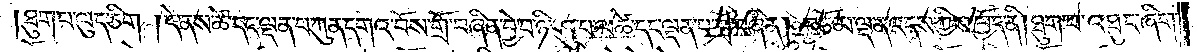ཐུག་པ་ལུད་ཅིག །དེ་ནས་ཚེ་དང་ལྡན་པ་ཀུན་དགའ་བོས་གྲོ་བཞིན་བྱེ་བ་ཉི་ཤུ་པ་ལ་ཚེ་དང་ལྡན་པ་གྲོ་བཞིན། བཅོམ་ལྡན་འདས་ཀྱིས་ཁྱོད་ནི། ཐུག་པ་ཐུང་ཞིག་
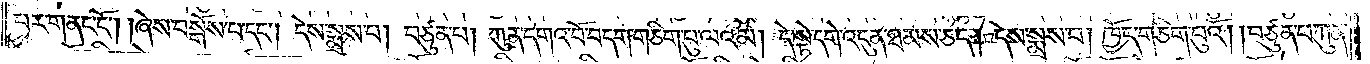བར་གནང་ངོ༌། །ཞེས་བསྒོས་པ་དང༌། དེས་སྨྲས་པ། བཙུན་པ། ཀུན་དགའ་བོ་བདག་གཅིག་པུ་ལའམ། དེ་སྟེ་དགེ་འདུན་ཐམས་ཅད། དེས་སྨྲས་པ། ཁྱོད་གཅིག་པུའི། །བཙུན་པ་ཀུན་
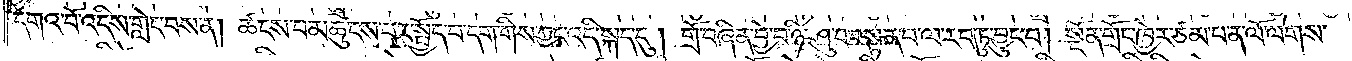དགའ་བོ་འདིས་གླེང་བས་ན། ཚངས་པ་མཚུངས་པར་སྤྱོད་པ་དག་གིས་ཀྱང་འདི་སྐད་དུ། གྲོ་བཞིན་བྱེ་བ་ཉི་ཤུ་པ་བསྟན་པ་ལ་རབ་ཏུ་བྱུང་བ། སྔོན་གྲོང་ཁྱེར་ཙམ་པ་ན་ལོ་ལེགས་
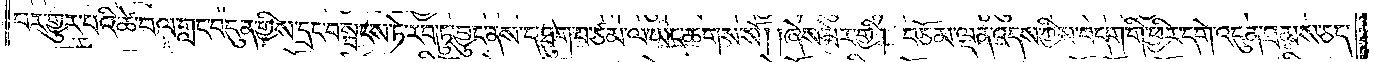པར་གྱུར་པའི་ཚེ་བལ་གླང་བདུན་གྱིས་དྲང་བ་སྤངས་ཏེ་རབ་ཏུ་བྱུང་ནས་ད་ཐུག་པ་ཙམ་ལ་ཡང་ཆགས་སོ། །ཞེས་ཟེར་གྱི། བཅོམ་ལྡན་འདས་ཀྱིས་བདག་གི་ཕྱིར་དགེ་འདུན་ཐམས་ཅད་
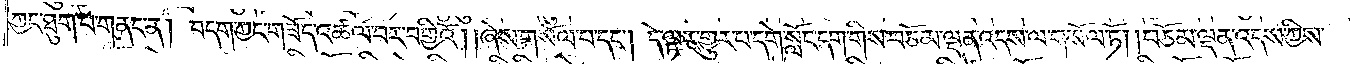ཀྱང་ཐུག་པ་གནང་ན། བདག་ཀྱང་གཟོད་འཚལ་བར་བགྱིའོ། །ཞེས་གསོལ་པ་དང༌། དེ་ལྟར་གྱུར་པ་དགེ་སློང་དག་གིས་བཅོམ་ལྡན་འདས་ལ་གསོལ་ཏོ། །བཅོམ་ལྡན་འདས་ཀྱིས་
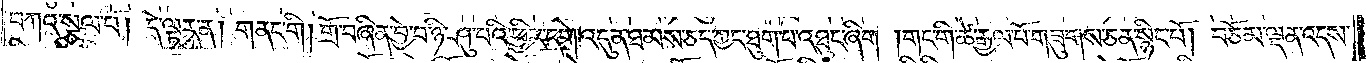བཀའ་སྩལ་པ། དེ་ལྟར་ན། གནང་གི །གྲོ་བཞིན་བྱེ་བ་ཉི་ཤུ་བའི་ཕྱིར་དགེ་འདུན་ཐམས་ཅད་ཀྱང་ཐུག་པ་འཐུང་ཞིག །གང་གི་ཚེ་རྒྱལ་པོ་གཟུགས་ཅན་སྙིང་པོ། བཅོམ་ལྡན་འདས་
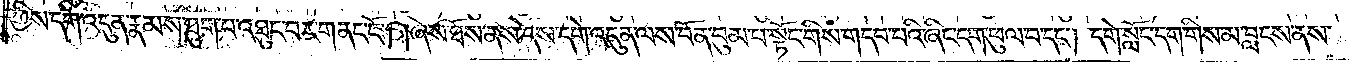ཀྱིས་དགེ་འདུན་རྣམས་ཐུག་པ་འཐུང་བར་གནང་ངོ༌། །ཞེས་ཐོས་ནས་དེས་དགེ་འདུན་ལས་བོན་བུམ་པ་སྟོང་གིས་གདབ་པའི་ཞིང་དག་ཕུལ་བ་དང༌། དགེ་སློང་དག་གིས་མ་བླངས་ནས་
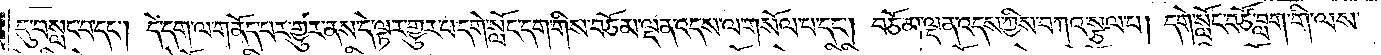དུ་བསླང་བ་དང༌། དེ་དག་ལ་གནོད་པར་གྱུར་ནས་དེ་ལྟར་གྱུར་པ་དགེ་སློང་དག་གིས་བཅོམ་ལྡན་འདས་ལ་གསོལ་པ་དང༌། བཅོམ་ལྡན་འདས་ཀྱིས་བཀའ་སྩལ་པ། དགེ་སློང་བཙོ་བླག་གི་ལས་
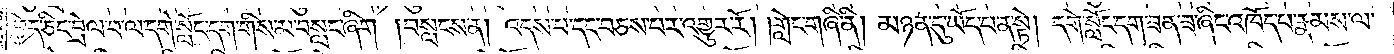བྱེད་ཅིང་བྲེལ་བ་ལ་དགེ་སློང་དག་གིས་མ་བསླང་ཞིག །བསླངས་ན། འདས་པ་དང་བཅས་པར་འགྱུར་རོ། །གླེང་གཞི་ནི། མཉན་དུ་ཡོད་པ་ན་སྟེ། དགེ་སློང་དག་ཟན་ཟ་ཞིང་འཁོད་པ་རྣམས་ལ་
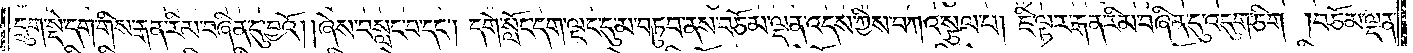དྲུག་སྡེ་དག་གིས་རྒན་རིམ་བཞིན་དུ་བྱའོ། །ཞེས་བསླང་བ་དང༌། དགེ་སློང་དག་ལྡང་དུ་མ་བཏུབ་ནས་བཅོམ་ལྡན་འདས་ཀྱིས་བཀའ་སྩལ་པ། ཇི་ལྟར་རྒན་རིམ་བཞིན་དུ་འདུག་ཅིག །བཅོམ་ལྡན་
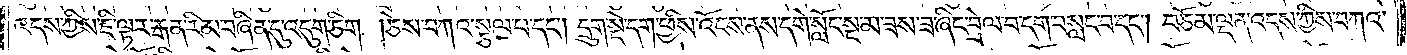འདས་ཀྱིས་ཇི་ལྟར་རྒན་རིམ་བཞིན་དུ་འདུག་ཅིག །ཅེས་བཀའ་སྩལ་པ་དང༌། དྲུག་སྡེ་དག་ཕྱིས་འོངས་ནས་དགེ་སློང་སྔ་མ་ཟས་ཟ་ཞིང་བྲེལ་བ་དག་བསླང་བ་དང༌། བཅོམ་ལྡན་འདས་ཀྱིས་བཀའ་
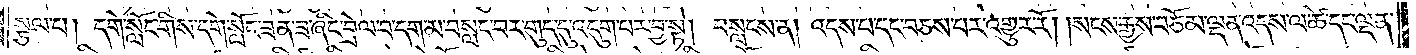སྩལ་པ། དགེ་སློང་གིས་དགེ་སློང་ཟན་ཟ་ཞིང་བྲེལ་བ་དག་མ་བསླང་བར་གུད་དུ་འདུག་པར་བྱ་སྟེ། བསླངས་ན། འདས་པ་དང་བཅས་པར་འགྱུར་རོ། །སངས་རྒྱས་བཅོམ་ལྡན་འདས་ལ་ཚེ་དང་ལྡན་
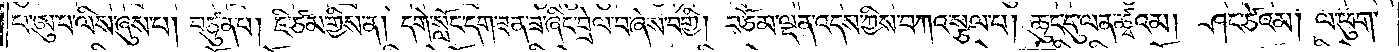པ་ཨུ་པ་ལིས་ཞུས་པ། བཙུན་པ། ཇི་ཙམ་གྱིས་ན། དགེ་སློང་དག་ཟན་ཟ་ཞིང་བྲེལ་བ་ཞེས་བགྱི། བཅོམ་ལྡན་འདས་ཀྱིས་བཀའ་སྩལ་པ། ཆུང་དུ་ལན་ཚྭའམ། ཤང་ཙེའམ། ལ་ཕུག་
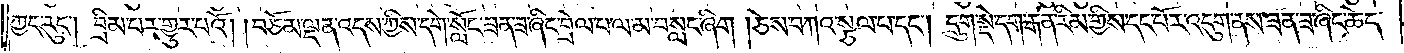ཀྱང་རུང༌། བྲིམ་པར་གྱུར་པའོ། །བཅོམ་ལྡན་འདས་ཀྱིས་དགེ་སློང་ཟན་ཟ་ཞིང་བྲེལ་པ་ལ་མ་བསླང་ཞིག །ཅེས་བཀའ་སྩལ་པ་དང༌། དྲུག་སྡེ་དག་རྒན་རིམ་གྱིས་དང་པོར་འདུག་ནས་ཟན་ཟ་ཞིང་ཆེད་
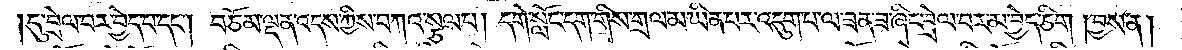དུ་བྲེལ་བར་བྱེད་པ་དང༌། བཅོམ་ལྡན་འདས་ཀྱིས་བཀའ་སྩལ་པ། དགེ་སློང་དག་གིས་གྲལ་མ་ཡིན་པར་འདུག་པ་ལ་ཟན་ཟ་ཞིང་བྲེལ་བར་མ་བྱེད་ཅིག། བྱས་ན།
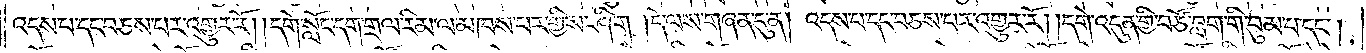འདས་པ་དང་བཅས་པར་འགྱུར་རོ། །དགེ་སློང་དག་གྲལ་རིམ་ལ་མཁས་པར་གྱིས་ཤིག །དེ་ལས་གཞན་དུ་ན། འདས་པ་དང་བཅས་པར་འགྱུར་རོ། །དགེ་འདུན་གྱི་བཙོ་བླག་གི་བུམ་པ་དང༌།
